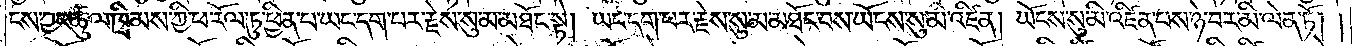ངས་ཀྱང་ཚུལ་ཁྲིམས་ཀྱི་ཕ་རོལ་ཏུ་ཕྱིན་པ་ཡང་དག་པར་རྗེས་སུ་མ་མཐོང་སྟེ། ཡང་དག་པར་རྗེས་སུ་མ་མཐོང་བས་ཡོངས་སུ་མི་འཛིན། ཡོངས་སུ་མི་འཛིན་པས་ཉེ་བར་མི་ལེན་ཏོ། །
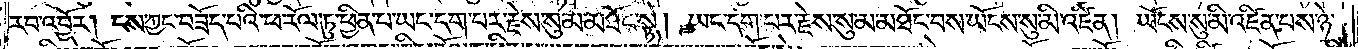རབ་འབྱོར། ངས་ཀྱང་བཟོད་པའི་ཕ་རོལ་ཏུ་ཕྱིན་པ་ཡང་དག་པར་རྗེས་སུ་མ་མཐོང་སྟེ། ཡང་དག་པར་རྗེས་སུ་མ་མཐོང་བས་ཡོངས་སུ་མི་འཛིན། ཡོངས་སུ་མི་འཛིན་པས་ཉེ་
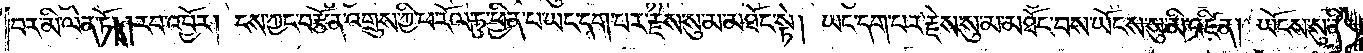བར་མི་ལེན་ཏོ། །རབ་འབྱོར། ངས་ཀྱང་བརྩོན་འགྲུས་ཀྱི་ཕ་རོལ་ཏུ་ཕྱིན་པ་ཡང་དག་པར་རྗེས་སུ་མ་མཐོང་སྟེ། ཡང་དག་པར་རྗེས་སུ་མ་མཐོང་བས་ཡོངས་སུ་མི་འཛིན། ཡོངས་སུ་མི་
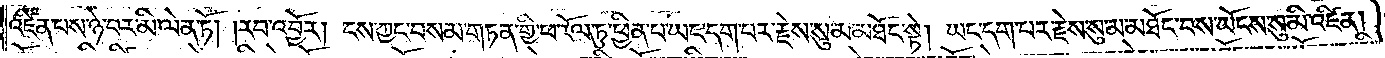འཛིན་པས་ཉེ་བར་མི་ལེན་ཏོ། །རབ་འབྱོར། ངས་ཀྱང་བསམ་གཏན་གྱི་ཕ་རོལ་ཏུ་ཕྱིན་པ་ཡང་དག་པར་རྗེས་སུ་མ་མཐོང་སྟེ། ཡང་དག་པར་རྗེས་སུ་མ་མཐོང་བས་ཡོངས་སུ་མི་འཛིན།
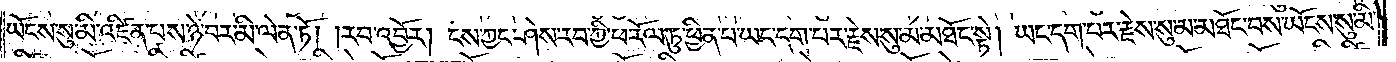ཡོངས་སུ་མི་འཛིན་པས་ཉེ་བར་མི་ལེན་ཏོ། །རབ་འབྱོར། ངས་ཀྱང་ཤེས་རབ་ཀྱི་ཕ་རོལ་ཏུ་ཕྱིན་པ་ཡང་དག་པར་རྗེས་སུ་མ་མཐོང་སྟེ། ཡང་དག་པར་རྗེས་སུ་མ་མཐོང་བས་ཡོངས་སུ་མི་
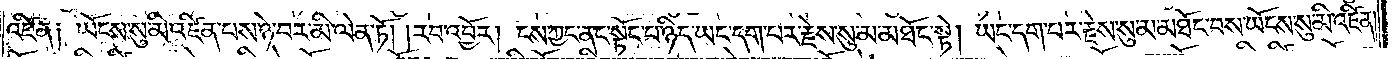འཛིན༑ ཡོངས་སུ་མི་འཛིན་པས་ཉེ་བར་མི་ལེན་ཏོ། །རབ་འབྱོར། ངས་ཀྱང་ནང་སྟོང་པ་ཉིད་ཡང་དག་པར་རྗེས་སུ་མ་མཐོང་སྟེ། ཡང་དག་པར་རྗེས་སུ་མ་མཐོང་བས་ཡོངས་སུ་མི་འཛིན།
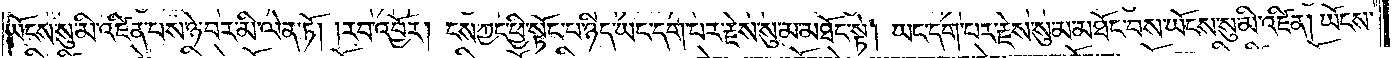ཡོངས་སུ་མི་འཛིན་པས་ཉེ་བར་མི་ལེན་ཏོ། །རབ་འབྱོར། ངས་ཀྱང་ཕྱི་སྟོང་པ་ཉིད་ཡང་དག་པར་རྗེས་སུ་མ་མཐོང་སྟེ། ཡང་དག་པར་རྗེས་སུ་མ་མཐོང་བས་ཡོངས་སུ་མི་འཛིན། ཡོངས་
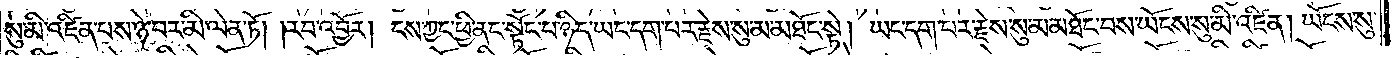སུ་མི་འཛིན་པས་ཉེ་བར་མི་ལེན་ཏོ། །རབ་འབྱོར། ངས་ཀྱང་ཕྱི་ནང་སྟོང་པ་ཉིད་ཡང་དག་པར་རྗེས་སུ་མ་མཐོང་སྟེ། ཡང་དག་པར་རྗེས་སུ་མ་མཐོང་བས་ཡོངས་སུ་མི་འཛིན། ཡོངས་སུ་
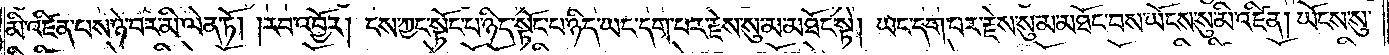མི་འཛིན་པས་ཉེ་བར་མི་ལེན་ཏོ། །རབ་འབྱོར། ངས་ཀྱང་སྟོང་པ་ཉིད་སྟོང་པ་ཉིད་ཡང་དག་པར་རྗེས་སུ་མ་མཐོང་སྟེ། ཡང་དག་པར་རྗེས་སུ་མ་མཐོང་བས་ཡོངས་སུ་མི་འཛིན། ཡོངས་སུ་
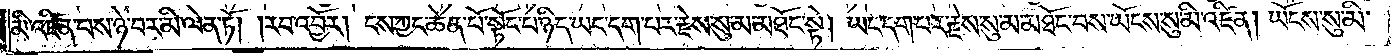མི་འཛིན་པས་ཉེ་བར་མི་ལེན་ཏོ། །རབ་འབྱོར། ངས་ཀྱང་ཆེན་པོ་སྟོང་པ་ཉིད་ཡང་དག་པར་རྗེས་སུ་མ་མཐོང་སྟེ། ཡང་དག་པར་རྗེས་སུ་མ་མཐོང་བས་ཡོངས་སུ་མི་འཛིན། ཡོངས་སུ་མི་
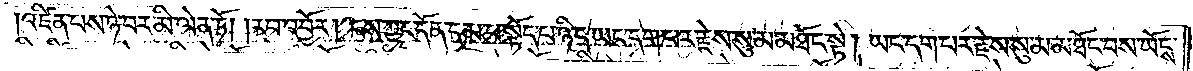འཛིན་པས་ཉེ་བར་མི་ལེན་ཏོ། །རབ་འབྱོར། ངས་ཀྱང་དོན་དམ་པ་སྟོང་པ་ཉིད་ཡང་དག་པར་རྗེས་སུ་མ་མཐོང་སྟེ། ཡང་དག་པར་རྗེས་སུ་མ་མཐོང་བས་ཡོངས་
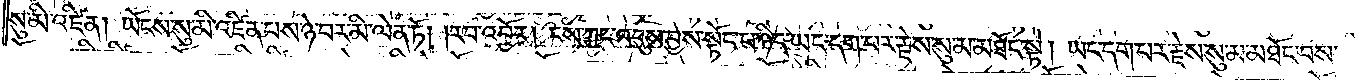སུ་མི་འཛིན། ཡོངས་སུ་མི་འཛིན་པས་ཉེ་བར་མི་ལེན་ཏོ། །རབ་འབྱོར། ངས་ཀྱང་འདུས་བྱས་སྟོང་པ་ཉིད་ཡང་དག་པར་རྗེས་སུ་མ་མཐོང་སྟེ། ཡང་དག་པར་རྗེས་སུ་མ་མཐོང་བས་
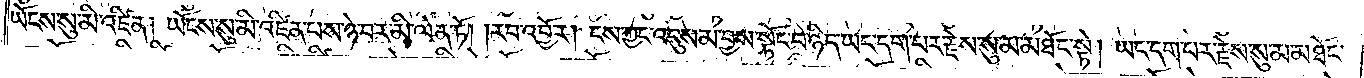ཡོངས་སུ་མི་འཛིན། ཡོངས་སུ་མི་འཛིན་པས་ཉེ་བར་མི་ལེན་ཏོ། །རབ་འབྱོར། ངས་ཀྱང་འདུས་མ་བྱས་སྟོང་པ་ཉིད་ཡང་དག་པར་རྗེས་སུ་མ་མཐོང་སྟེ། ཡང་དག་པར་རྗེས་སུ་མ་མཐོང་
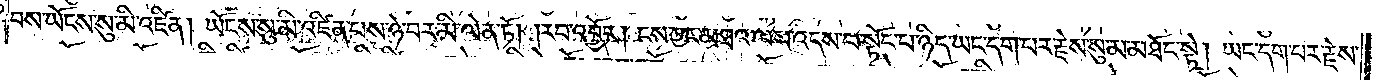བས་ཡོངས་སུ་མི་འཛིན། ཡོངས་སུ་མི་འཛིན་པས་ཉེ་བར་མི་ལེན་ཏོ། །རབ་འབྱོར། ངས་ཀྱང་མཐའ་ལས་འདས་པ་སྟོང་པ་ཉིད་ཡང་དག་པར་རྗེས་སུ་མ་མཐོང་སྟེ། ཡང་དག་པར་རྗེས་
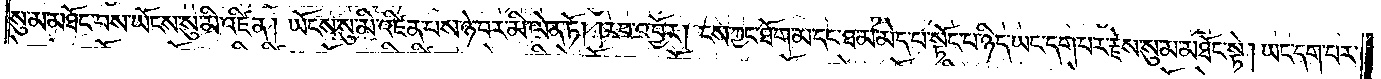སུ་མ་མཐོང་བས་ཡོངས་སུ་མི་འཛིན། ཡོངས་སུ་མི་འཛིན་པས་ཉེ་བར་མི་ལེན་ཏོ། །རབ་འབྱོར། ངས་ཀྱང་ཐོག་མ་དང་ཐ་མ་མེད་པ་སྟོང་པ་ཉིད་ཡང་དག་པར་རྗེས་སུ་མ་མཐོང་སྟེ། ཡང་དག་པར་
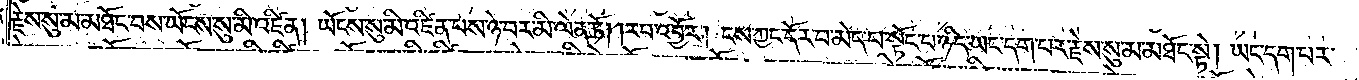རྗེས་སུ་མ་མཐོང་བས་ཡོངས་སུ་མི་འཛིན། ཡོངས་སུ་མི་འཛིན་པས་ཉེ་བར་མི་ལེན་ཏོ། །རབ་འབྱོར། ངས་ཀྱང་དོར་བ་མེད་པ་སྟོང་པ་ཉིད་ཡང་དག་པར་རྗེས་སུ་མ་མཐོང་སྟེ། ཡང་དག་པར་
